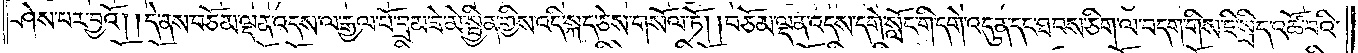ཤེས་པར་བྱའོ། །དེ་ནས་བཅོམ་ལྡན་འདས་ལ་རྒྱལ་པོ་བྲམ་ཟེ་མེ་སྦྱིན་གྱིས་འདི་སྐད་ཅེས་གསོལ་ཏོ། །བཅོམ་ལྡན་འདས་དགེ་སློང་གི་དགེ་འདུན་དང་ཐབས་ཅིག་ལ་བདག་གིས་ཇི་སྲིད་འཚོ་བའི་
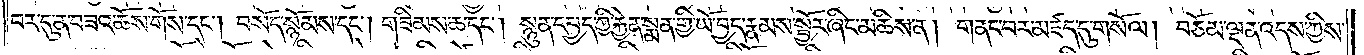བར་དུ་ན་བཟའ་ཆོས་གོས་དང༌། བསོད་སྙོམས་དང༌། གཟིམས་ཆ་དང༌། སྙུན་དཔྱད་ཀྱི་རྐྱེན་སྨན་གྱི་ཡོ་བྱད་རྣམས་སྦྱོར་ཞིང་མཆིས་ན། གནང་བར་མཛད་དུ་གསོལ། བཅོམ་ལྡན་འདས་ཀྱིས་
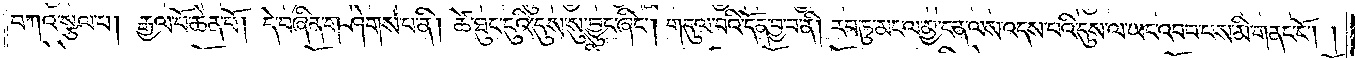བཀའ་སྩལ་པ། རྒྱལ་པོ་ཆེན་པོ། དེ་བཞིན་གཤེགས་པ་ནི། ཚེ་ཐུང་ངུའི་དུས་སུ་བྱུང་ཞིང༌། གདུལ་བའི་དོན་བྱ་བ་ནི། རབ་ཏུ་མང་ལ་མྱ་ངན་ལས་འདས་པའི་དུས་ལ་ཡང་འབབ་པས་མི་གནང་ངོ༌། །
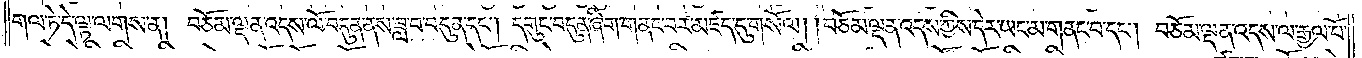གལ་ཏེ་དེ་ལྟ་ལགས་ན། བཅོམ་ལྡན་འདས་ལོ་བདུན་ནས་ཟླ་བ་བདུན་དང༌། དགུང་བདུན་ཞིག་གནང་བར་མཛད་དུ་གསོལ། །བཅོམ་ལྡན་འདས་ཀྱིས་དེར་ཡང་མ་གནང་བ་དང༌། བཅོམ་ལྡན་འདས་ལ་རྒྱལ་པོ་
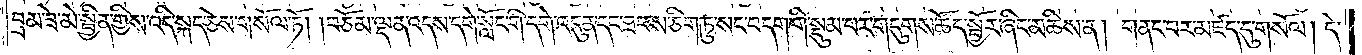བྲམ་ཟེ་མེ་སྦྱིན་གྱིས་འདི་སྐད་ཅེས་གསོལ་ཏོ། །བཅོམ་ལྡན་འདས་དགེ་སློང་གི་དགེ་འདུན་དང་ཐབས་ཅིག་ཏུ་སང་བདག་གི་སྡུམ་པར་གདུགས་ཚོད་སྦྱོར་ཞིང་མཆིས་ན། གནང་བར་མཛད་དུ་གསོལ། དེ་
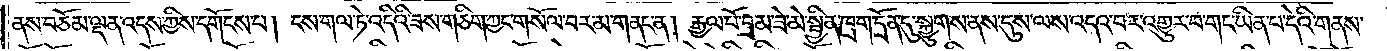ནས་བཅོམ་ལྡན་འདས་ཀྱིས་དགོངས་པ། ངས་གལ་ཏེ་འདིའི་ཟས་གཅིག་ཀྱང་གསོལ་བར་མ་གནང་ན། རྒྱལ་པོ་བྲམ་ཟེ་མེ་སྦྱིན་ཁྲག་དྲོན་དུ་སྐྱུགས་ནས་དུས་ལས་འདའ་བར་འགྱུར་བ་གང་ཡིན་པ་དེའི་གནས་
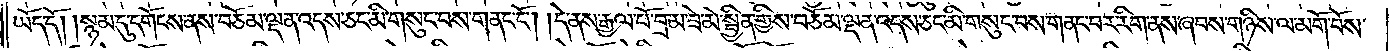ཡོད་དོ། །སྙམ་དུ་དགོངས་ནས་བཅོམ་ལྡན་འདས་ཅང་མི་གསུང་བས་གནང་ངོ༌། །དེ་ནས་རྒྱལ་པོ་བྲམ་ཟེ་མེ་སྦྱིན་གྱིས་བཅོམ་ལྡན་འདས་ཅང་མི་གསུང་བས་གནང་བར་རིག་ནས་ཞབས་གཉིས་ལ་མགོ་བོས་
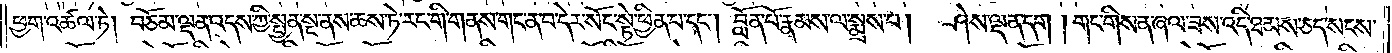ཕྱག་འཚལ་ཏེ། བཅོམ་ལྡན་འདས་ཀྱི་སྤྱན་སྔ་ནས་ཆས་ཏེ་རང་གི་གནས་གང་ན་བ་དེར་སོང་སྟེ་ཕྱིན་པ་དང༌། བློན་པོ་རྣམས་ལ་སྨྲས་པ། ཤེས་ལྡན་དག །གང་གིས་ན་ཞལ་ཟས་འདི་ཐམས་ཅད་སངས་
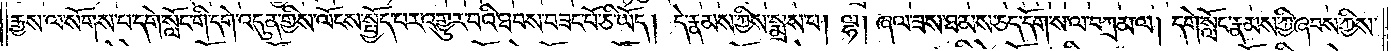རྒྱས་ལ་སོགས་པ་དགེ་སློང་གི་དགེ་འདུན་གྱིས་ལོངས་སྤྱོད་པར་འགྱུར་བའི་ཐབས་བཟང་པོ་ཅི་ཡོད། དེ་རྣམས་ཀྱིས་སྨྲས་པ། ལྷ། ཞལ་ཟས་ཐམས་ཅད་དོགས་ལ་བཀྲམ་ལ། དགེ་སློང་རྣམས་ཀྱི་ཞབས་ཀྱིས་
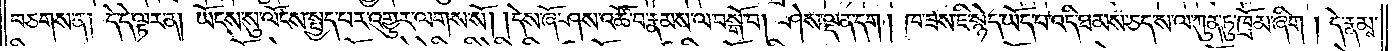བཅགས་ན། དེ་དེ་ལྟར་ན། ཡོངས་སུ་ལོངས་སྤྱོད་པར་འགྱུར་ལགས་སོ། །དེས་ཞོ་ཤས་འཚོ་བ་རྣམས་ལ་བསྒོ་བ། ཤེས་ལྡན་དག །ཁ་ཟས་ཇི་སྙེད་ཡོད་པ་འདི་ཐམས་ཅད་ས་ལ་ཀུན་ཏུ་ཁྲོམ་ཞིག །དེ་རྣམས་
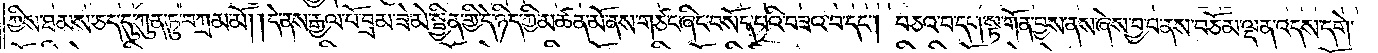ཀྱིས་ཐམས་ཅད་དུ་ཀུན་ཏུ་བཀྲམ་མོ། །དེ་ནས་རྒྱལ་པོ་བྲམ་ཟེ་མེ་སྦྱིན་གྱི་དེ་ཉིད་ཀྱི་མཚན་མོ་ནས་གཙང་ཞིང་བསོད་པའི་བཟའ་བ་དང༌། བཅའ་བ་དག་སྟ་གོན་བྱས་ནས་ཞེས་བྱ་བ་ནས་བཅོམ་ལྡན་འདས་དགེ་
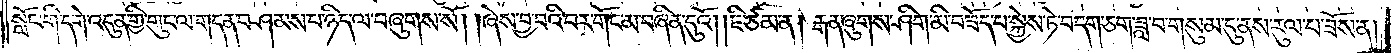སློང་གི་དགེ་འདུན་གྱི་གུང་ལ་གདན་བཤམས་པ་ཉིད་ལ་བཞུགས་སོ། །ཞེས་བྱ་བའི་བར་གོང་མ་བཞིན་དུའོ། །ཇི་ཙམ་ན། རྒན་ཞུགས་ཤིག་མི་བཟོད་པ་སྐྱེས་ཏེ་བདག་ཅག་ཟླ་བ་གསུམ་དུ་ནས་རུལ་པ་ཟོས་ན།
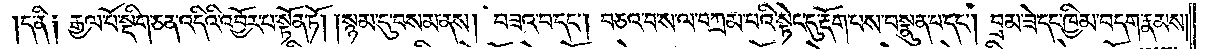ད་ནི༑ རྒྱལ་པོ་སྡིག་ཅན་འདིའི་འབྱོར་པ་སྟོན་ཏོ། །སྙམ་དུ་བསམ་ནས། བཟའ་བ་དང༌། བཅའ་བ་ས་ལ་བཀྲམ་པའི་སྟེང་དུ་རྡོག་པས་བསྣུན་པ་དང༌། བྲམ་ཟེ་དང་ཁྱིམ་བདག་རྣམས།
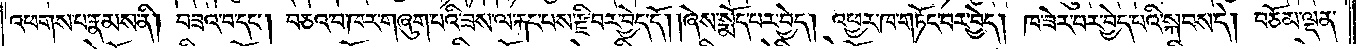འཕགས་པ་རྣམས་ནི། བཟའ་བ་དང༌། བཅའ་བ་ཁར་གཞུག་པའི་ཟས་ལ་རྐང་པས་རྫི་བར་བྱེད་དོ། །ཞེས་སྨོད་པར་བྱེད། འཕྱར་ཁ་གཏོང་བར་བྱེད། ཁ་ཟེར་བར་བྱེད་པའི་སྐབས་དེ། བཅོམ་ལྡན་
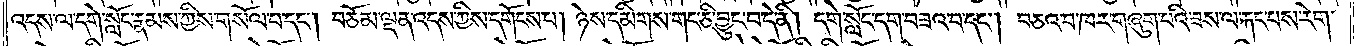འདས་ལ་དགེ་སློང་རྣམས་ཀྱིས་གསོལ་པ་དང༌། བཅོམ་ལྡན་འདས་ཀྱིས་དགོངས་པ། ཉེས་དམིགས་གང་ཅི་བྱུང་བ་དེ་ནི། དགེ་སློང་དག་བཟའ་བ་དང༌། བཅའ་བ་ཁར་གཞུག་པའི་ཟས་ལ་རྐང་པས་རེག་
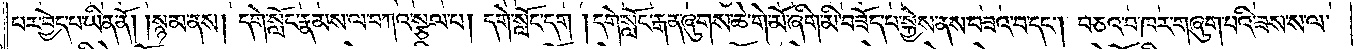པར་བྱེད་པ་ཡིན་ནོ། །སྙམ་ནས། དགེ་སློང་རྣམས་ལ་བཀའ་སྩལ་པ། དགེ་སློང་དག །དགེ་སློང་རྒན་ཞུགས་ཆེ་གེ་མོ་ཞིག་མི་བཟོད་པ་སྐྱེས་ནས་བཟའ་བ་དང༌། བཅའ་བ་ཁར་གཞུག་པའི་ཟས་ས་ལ་
